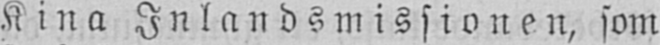Kina Inlandsmissionen, som
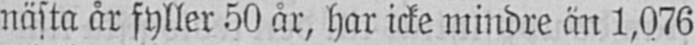nästa år fyller 50 år, har icke mindre än 1,076
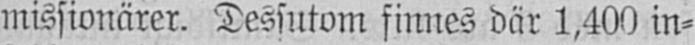missionärer. Dessutom finnes där 1,400 in-
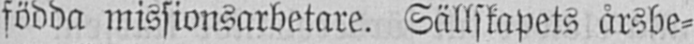födda missionsarbetare. Sällskapets årsbe-
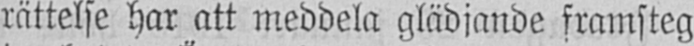rättelse har att meddela glädjande framsteg
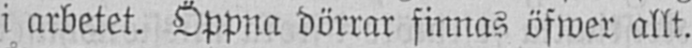i arbetet. Öppna dörrar finnas öfwer allt.
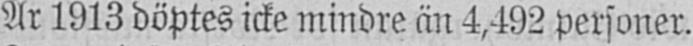År 1913 döptes icke mindre än 4,492 personer.
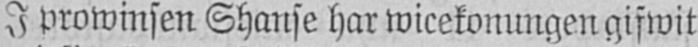I prowinsen Shanse har wicekonungen gifwit
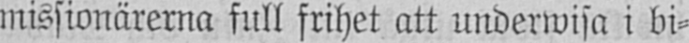missionärerna full frihet att underwisa i bi-
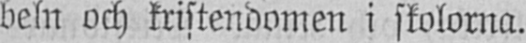beln och kristendomen i skolorna.
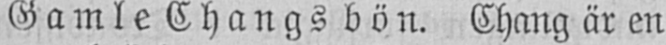Ga mle Changs bön. Chang är en
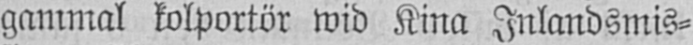gammal kolportör wid Kina Inlandsmis-
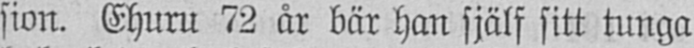sion. Ehuru 72 år bär han själf sitt tunga
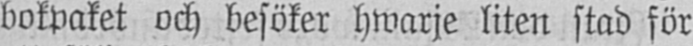bokpaket och besöker hwarje liten stad för
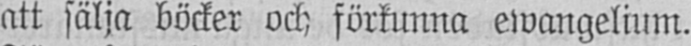att sälja böcker och förkunna ewangelium.
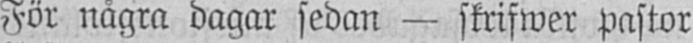För några dagar sedan — skrifwer pastor
